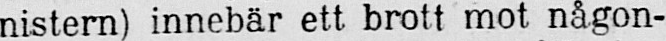nistern) innebär ett brott mot någon-
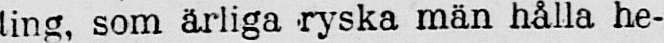ting, som ärliga ryska män hålla he-
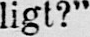ligt?"
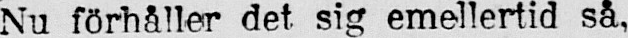Nu förhåller det sig emellertid så,
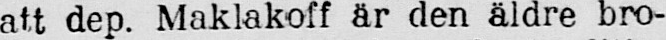att dep. Maklakoff är den äldre bro-
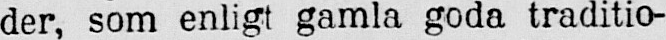der, som enligt gamla goda traditio-
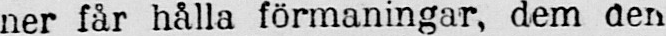ner får hålla förmaningar, dem der
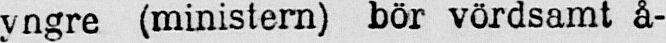yngre (ministern) bör vördsamt å-
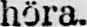höra.
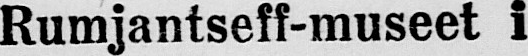Rumjantseff-museet i
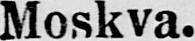Moskva.
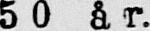50 år.
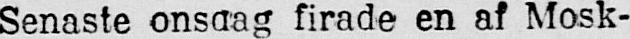Senaste onsdag firade en af Mosk-
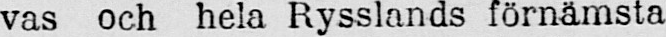vas och hela Rysslands förnämsta
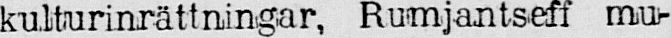kulturinrättningar, Rumjantseff mu-
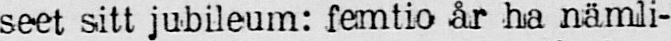seet sitt jubileum: femtio år ha nämli-
